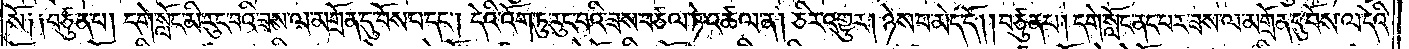སོ། །བཙུན་པ། དགེ་སློང་མི་རུང་བའི་ཟས་ལ་མགྲོན་དུ་བོས་པ་དང༌། དེའི་འོག་ཏུ་རུང་བའི་ཟས་བཙལ་ཏེ་འཚལ་ན། ཅིར་འགྱུར། ཉེས་པ་མེད་དོ། །བཙུན་པ། དགེ་སློང་ནང་པར་ཟས་ལ་མགྲོན་དུ་བོས་ལ་དེའི་
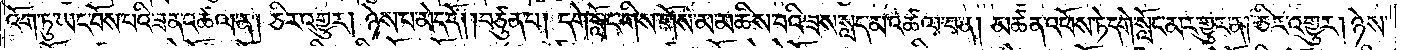འོག་ཏུ་ཡང་བོས་པའི་ཟན་འཚལ་ན། ཅིར་འགྱུར། ཉེས་པ་མེད་དོ། །བཙུན་པ། དགེ་སློང་གིས་གོས་མ་མཆིས་པའི་ཟས་སླད་མ་འཚལ་བ་ན། མཚན་འཕོས་ཏེ་དགེ་སློང་མར་གྱུར་ན། ཅིར་འགྱུར། ཉེས་
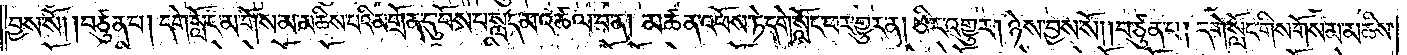བྱས་སོ། །བཙུན་པ། དགེ་སློང་མ་གོས་མ་མཆིས་པའི་མགྲོན་དུ་བོས་པ་སླད་མ་འཚལ་བ་ན། མཚན་འཕོས་ཏེ་དགེ་སློང་ཕར་གྱུར་ན། ཅིར་འགྱུར། ཉེས་བྱས་སོ། །བཙུན་པ། དགེ་སློང་གིས་གོས་མ་མཆིས་
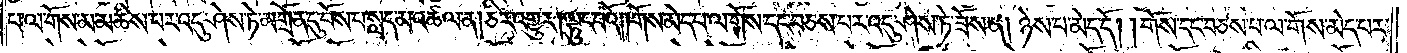པ་ལ་གོས་མ་མཆིས་པར་འདུ་ཤེས་ཏེ་མགྲོན་དུ་བོས་པ་སླད་མ་འཚལ་ན། ཅིར་འགྱུར། ལྟུང་བའོ། །གོས་མེད་པ་ལ་གོས་དང་བཅས་པར་འདུ་ཤེས་ཏེ་ཟོས་ན། ཉེས་པ་མེད་དོ། །གོས་དང་བཅས་པ་ལ་གོས་མེད་པར་
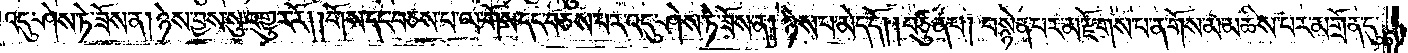འདུ་ཤེས་ཏེ་ཟོས་ན། ཉེས་བྱས་སུ་འགྱུར་རོ། །གོས་དང་བཅས་པ་ལ་གོས་དང་བཅས་པར་འདུ་ཤེས་ཏེ་ཟོས་ན། ཉེས་པ་མེད་དོ། །བཙུན་པ། བསྙེན་པར་མ་རྫོགས་པ་ན་གོས་མ་མཆིས་པར་མགྲོན་དུ་
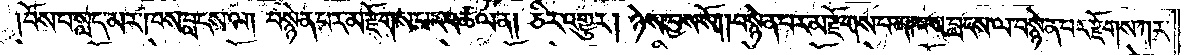།བོས་བསླད་མར་ཁས་བླངས་ལ། བསྙེན་པར་མ་རྫོགས་པར་འཚལ་ན། ཅིར་འགྱུར། ཉེས་བྱས་སོ། །བསྙེན་པར་མ་རྫོགས་པ་ན་ཁས་བླངས་ལ་བསྙེན་པར་རྫོགས་ཀར་
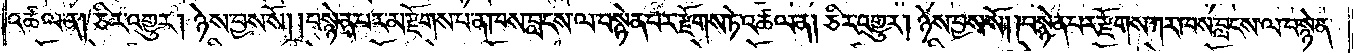འཚལ་ན། ཅིར་འགྱུར། ཉེས་བྱས་སོ། །བསྙེན་པར་མ་རྫོགས་པ་ན་ཁས་བླངས་ལ་བསྙེན་པར་རྫོགས་ཏེ་འཚལ་ན། ཅིར་འགྱུར། ཉེས་བྱས་སོ། །བསྙེན་པར་རྫོགས་ཀར་ཁས་བླངས་ལ་བསྙེན་
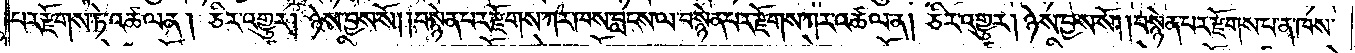པར་རྫོགས་ཏེ་འཚལ་ན། ཅིར་འགྱུར། ཉེས་བྱས་སོ། །བསྙེན་པར་རྫོགས་ཀར་ཁས་བླངས་ལ་བསྙེན་པར་རྫོགས་ཀར་འཚལ་ན། ཅིར་འགྱུར། ཉེས་བྱས་སོ། །བསྙེན་པར་རྫོགས་པ་ན་ཁས་
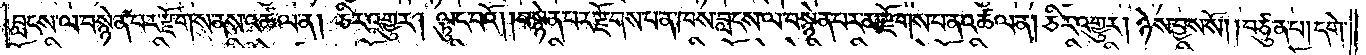བླངས་ལ་བསྙེན་པར་རྫོགས་ནས་འཚལ་ན། ཅིར་འགྱུར། ལྟུང་བའོ། །བསྙེན་པར་རྫོགས་པ་ན་ཁས་བླངས་ལ་བསྙེན་པར་མ་རྫོགས་པ་ན་འཚལ་ན། ཅིར་འགྱུར། ཉེས་བྱས་སོ། །བཙུན་པ། དགེ་
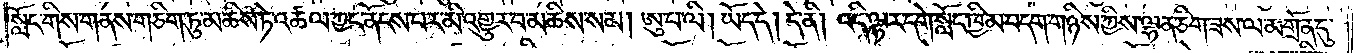སློང་གིས་གནས་གཅིག་ཏུ་མཆིས་ཏེ་འཚལ་ཀྱང་ནོངས་པར་མི་འགྱུར་བ་མཆིས་སམ། ཨུ་པ་ལི། ཡོད་དེ། དེ་ནི། འདི་ལྟར་དགེ་སློང་ཁྱིམ་བདག་གཉིས་ཀྱིས་ལྷན་ཅིག་ཟས་ལ་མགྲོན་དུ་
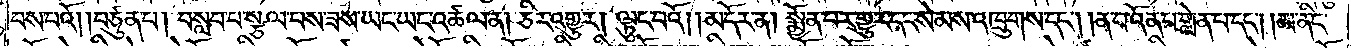བས་པའོ། །བཙུན་པ། བསླབ་པ་སྩལ་བས་ཟས་ཡང་ཡང་འཚལ་ན། ཅིར་འགྱུར། ལྟུང་བའོ། །མདོར་ན། སྨྱོན་པར་གྱུར་དང་སེམས་འཁྲུགས་དང༌། །ན་བ་འོན་པ་གླེན་པ་དང༌། །མ་ནིང་
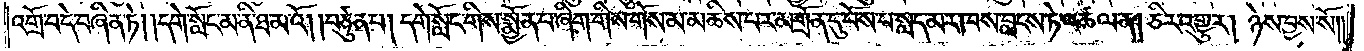འགྲོ་བ་དེ་བཞིན་ཏེ། །དགེ་སློང་མ་ནི་ཐ་མ་འོ། །བཙུན་པ། དགེ་སློང་གིས་སྨྱོན་པ་ཞིག་གིས་གོས་མ་མཆིས་པར་མགྲོན་དུ་བོས་པ་སླད་མར་ཁས་བླངས་ཏེ་འཚལ་ན། ཅིར་འགྱུར། ཉེས་བྱས་སོ༎
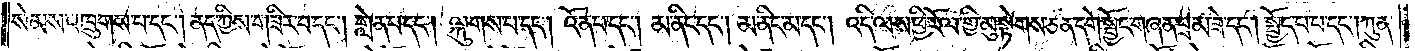སེམས་འཁྲུགས་པ་དང༌། ནད་ཀྱིས་གཟིར་བ་དང༌། གླེན་པ་དང༌། ལྐུགས་པ་དང༌། འོན་པ་དང༌། མ་ནིང་དང༌། མ་ནིང་མ་དང༌། འདི་ལས་ཕྱི་རོལ་གྱི་མུ་སྟེགས་ཅན་དགེ་སྦྱོང་གཞན་བྲམ་ཟེ་དང༌། སྤྱོད་པ་པ་དང༌། ཀུན་
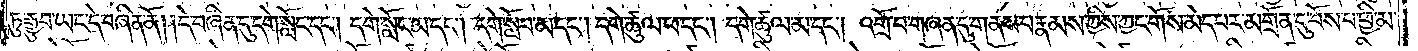ཏུ་རྒྱུ་བ་ཡང་དེ་བཞིན་ནོ། །དེ་བཞིན་དུ་དགེ་སློང་དང༌། དགེ་སློང་མ་དང༌། དགེ་སློབ་མ་དང༌། དགེ་ཚུལ་ཕ་དང༌། དགེ་ཚུལ་མ་དང༌། འགྲོ་བ་གཞན་དུ་གནས་པ་རྣམས་ཀྱིས་ཀྱང་གོས་མེད་པར་མགྲོན་དུ་བོས་པ་ཕྱི་མ་
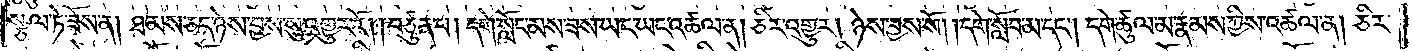སྩལ་ཏེ་ཟོས་ན། ཐམས་ཅད་ཉེས་བྱས་སུ་འགྱུར་རོ། །བཙུན་པ། དགེ་སློང་མས་ཟས་ཡང་ཡང་འཚལ་ན། ཅིར་འགྱུར། ཉེས་བྱས་སོ། །དགེ་སློབ་མ་དང༌། དགེ་ཚུལ་མ་རྣམས་ཀྱིས་འཚལ་ན། ཅིར་
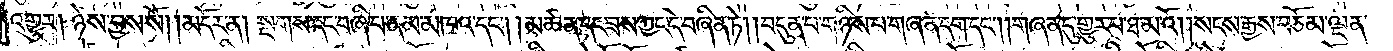འགྱུར། ཉེས་བྱས་སོ།    །མདོར་ན། སྔགས་དང་བཞི་པ་ནམ་མཁའ་དང༌། །མཚན་དང་ཟས་ཀྱང་དེ་བཞིན་ཏེ། །བདུན་པ་གཉིས་པ་གཞན་དག་དང༌། །གཞན་དུ་གྱུར་པ་ཐ་མ་འོ། །སངས་རྒྱས་བཅོམ་ལྡན་
